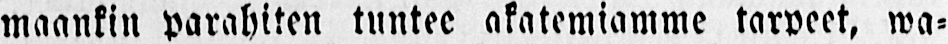maankin parahiten tuntee akatemiamme tarpeet, wa-
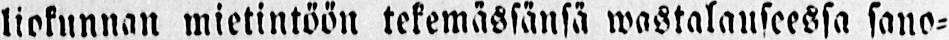liokunnan mietintöön tekemässänsä wastalanseessa sano-
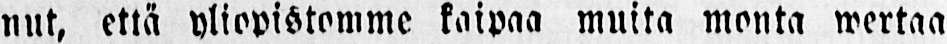nut, että yliopistomme kaipaa muita monta wertaa
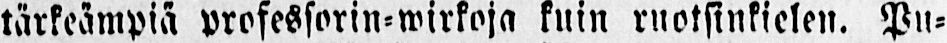tärkeämpiä prosessorin-wirkoja kuin ruotsinkielen. Pu-
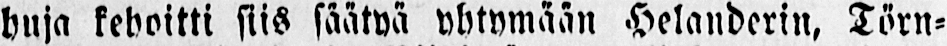huja kehoitti siis säätyä yhtymään Helanderin, Törn-
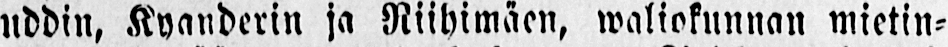uddin, Kyanderin ja Riihimäen, waliokunnan mietin-
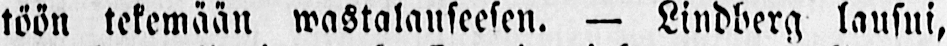töön tekemään wastalauseesen. — Lindberg lausui,
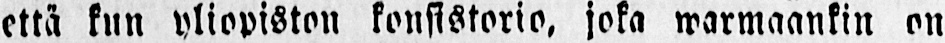että kun yliopiston konsistorio, joka warmaankin on
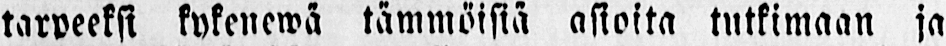tarpeeksi kykenewä tämmöisiä asioita tutkimaan ja
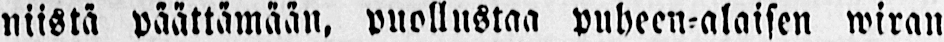niistä päättämään, puollustaa puheen-alaisen wiran
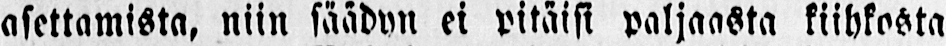asettamista, niin säädyn ei pitäisi paljaasta kiihkosta
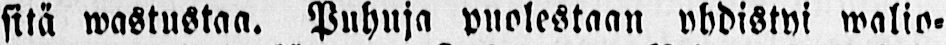sitä wastustaa. Puhuja puolestaan yhdistyi walio-
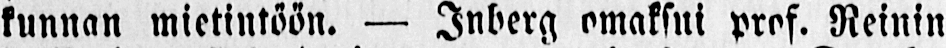kunnan mietintöön. — Inberg omaksui prof. Reinin
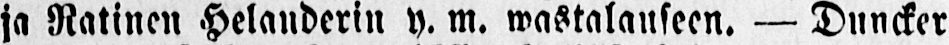ja Ratinen Helanderin y. m. wastalauseen. — Duncker
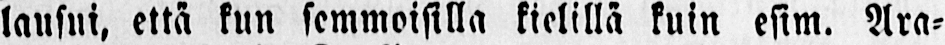lausui, että kun semmoisilla kielillä kuin esim. Ara-
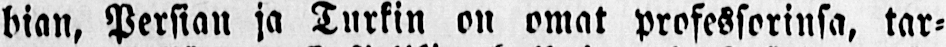bian, Persian ja Turkin on omat professorinsa, tar-
